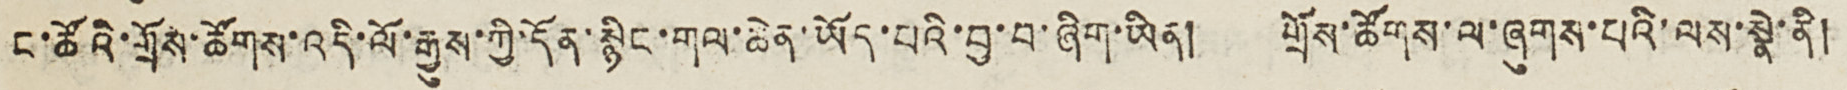ང་ཚོའི་གྲོས་ཚོགས་འདི་ལོ་རྒྱུས་ཀྱི་དོན་སྙིང་གལ་ཆེན་ཡོད་པའི་བྱ་བ་ཞིག་ཡིན། གྲོས་ཚོགས་ལ་ཞུགས་པའི་ལས་སྣེ་ནི།
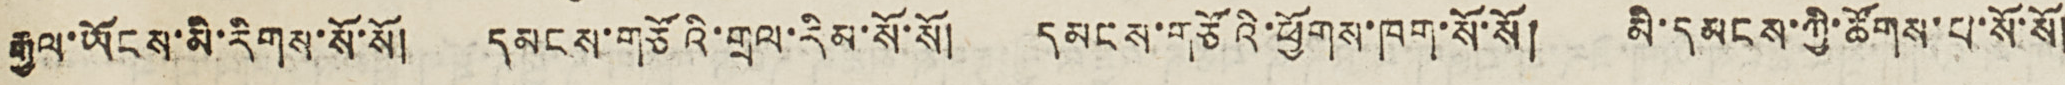རྒྱལ་ཡོངས་མི་རིགས་སོ་སོ། དམངས་གཙོའི་གྲལ་རིམ་སོ་སོ། དམངས་གཙོའི་ཕྱོགས་ཁག་སོ་སོ། མི་དམངས་ཀྱི་ཚོགས་པ་སོ་སོ།
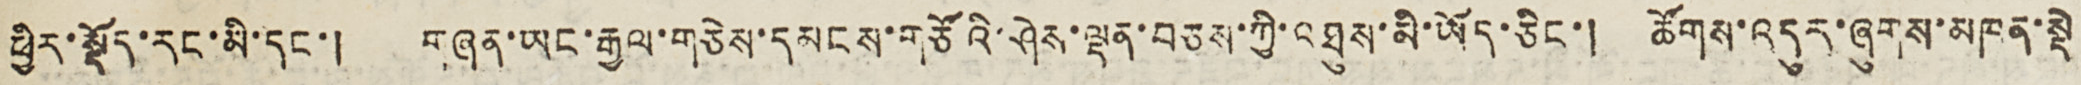ཕྱིར་སྡོད་རང་མི་དང་། གཞན་ཡང་རྒྱལ་གཅེས་དམངས་གཙོའི་ཤེས་ལྡན་བཅས་ཀྱི་འཐུས་མི་ཡོད་ཅིང་། ཚོགས་འདུར་ཟུགས་མཁན་སྡེ
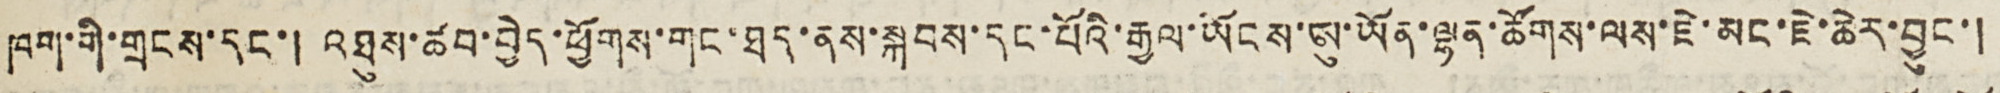ཁག་གི་གྲངས་དང་། འཐུས་ཚབ་བྱེད་ཕྱོགས་གང་ཐད་ནས་སྐབས་དང་པོའི་རྒྱལ་ཡོངས་ཨུ་ཡོན་ལྷན་ཚོགས་ལས་ཇེ་མང་ཇེ་ཆེར་བྱུང་།
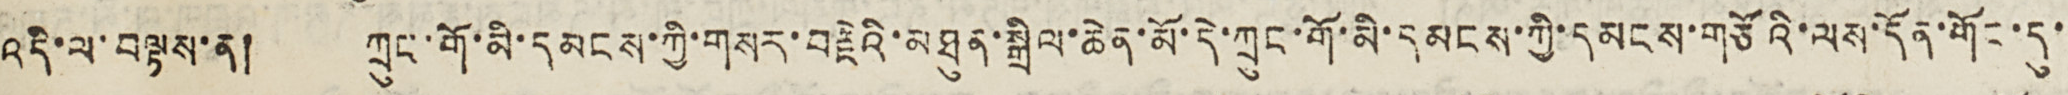འདི་ལ་བལྟས་ན། ཀྲུང་གོ་མི་དམངས་ཀྱི་གསར་བརྗེའི་མཐུན་སྒྲིལ་ཆེན་མོ་དེ་ཀྲུང་གོ་མི་དམངས་ཀྱི་དམངས་གཙོའི་ལས་དོན་གོང་དུ་
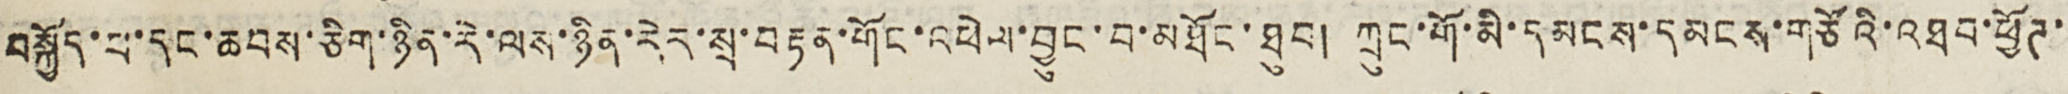བསྐྱོད་པ་དང་ཆབས་ཅིག་ཉིན་རེ་ལས་ཉིན་རེར་སྲ་བརྟན་གོང་འཕེལ་བྱུང་བ་མཐོང་ཐུབ། ཀྲུང་གོ་མི་དམངས་དམངས་གཙོའི་འཐབ་ཕྱོཊ་
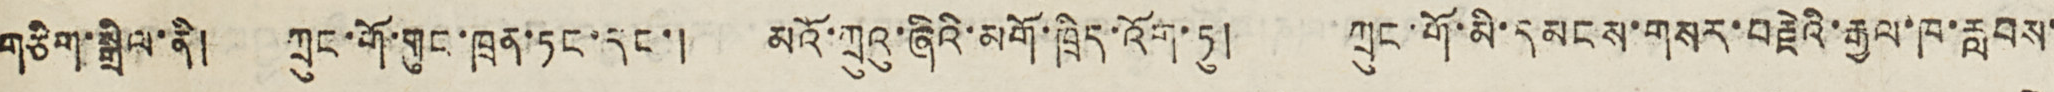གཅིག་སྒྲིལ་ནི། ཀྲུང་གོ་གུང་ཁྲན་ཏང་དང་། མའོ་ཀྲུའུ་ཞིའི་མགོ་ཁྲིད་འོག་ཏུ། ཀྲུང་གོ་མི་དམངས་གསར་བརྗེའི་རྒྱལ་ཁ་རླབས་
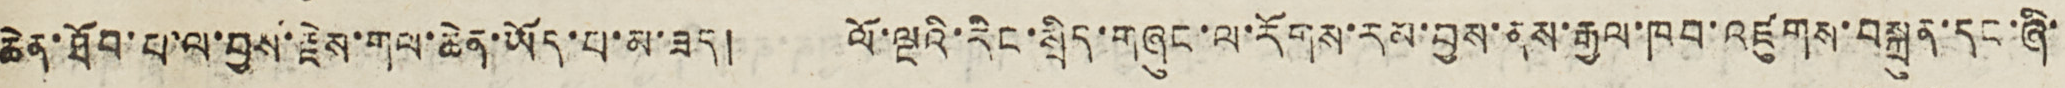ཆེན་ཐོབ་པ་ལ་བྱས་རྗེས་གལ་ཆེན་ཡོད་པ་མ་ཟད། ལོ་ལྔའི་རིང་སྲིད་གཞུང་ལ་རོགས་རས་བྱས་ནས་རྒྱལ་ཁབ་འཛུགས་བསྐྲུན་དང་ཞི་
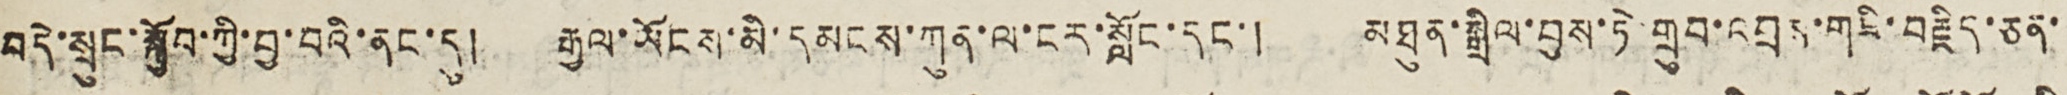བདེ་སྲུང་སྐྱོབ་ཀྱི་བྱ་བའི་ནང་དུ། རྒྱལ་ཡོངས་མེ་དམངས་ཀུན་ལ་ངར་སློང་དང་། མཐུན་སྒྲིལ་བྱས་ཏེ་གྲུབ་འབྲད་གཟི་བརྗིད་ཅན་
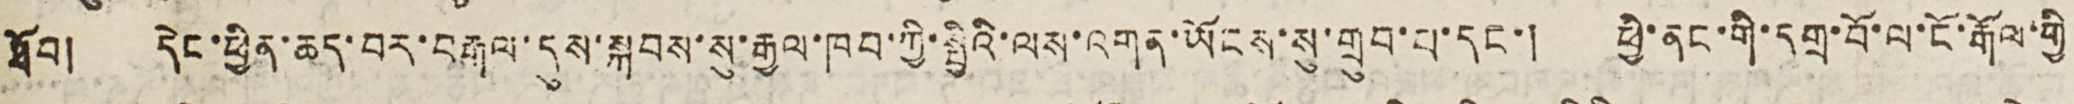ཐོབ། དེང་ཕྱིན་ཆད་བར་བརྒལ་དུས་སྐབས་སུ་རྒྱལ་ཁབ་ཀྱི་སྤྱིའི་ལས་འགན་ཡོངས་སུ་གྲུབ་པ་དང་། ཕྱི་ནང་གི་དགྲ་བོ་ལ་ངོ་རྒོལ་གྱི
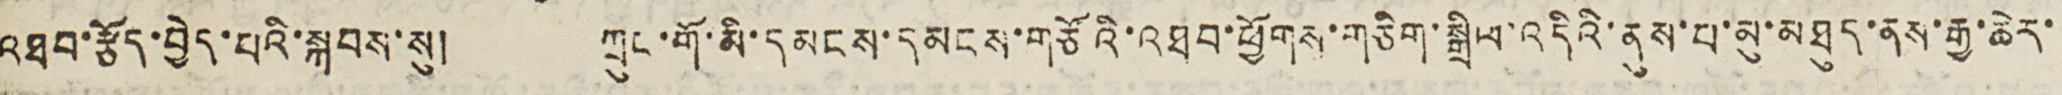འཐབ་རྩོད་བྱེད་པའི་སྐབས་སུ། ཀྲུང་གོ་མི་དམངས་དམངས་གཙོའི་འཐབ་ཕྱོགས་གཅིག་སྒྲིལ་འདིའི་ནུས་པ་མུ་མཐུད་ནས་རྒྱ་ཆེར་
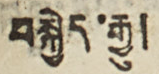བསྐྱེད་རྒྱུ།
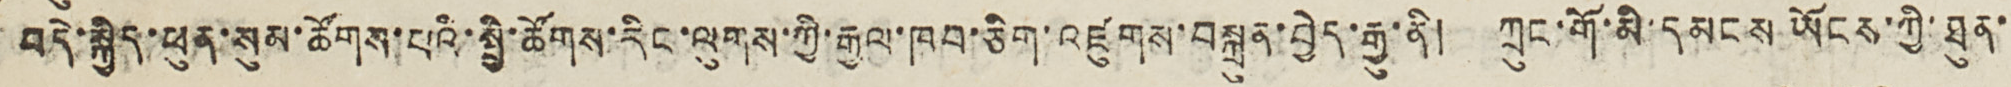བདེ་སྐྱིད་ཕུན་སུམ་ཚོགས་པའི་སྤྱི་ཚོགས་རིང་ལུགས་ཀྱི་རྒྱལ་ཁབ་ཅིག་འཛུགས་བསྐྲུན་བྱེད་རྒྱུ་ནི། ཀྲུང་གོ་མི་དམངས ཡོངས་ཀྱི་ཐུན་
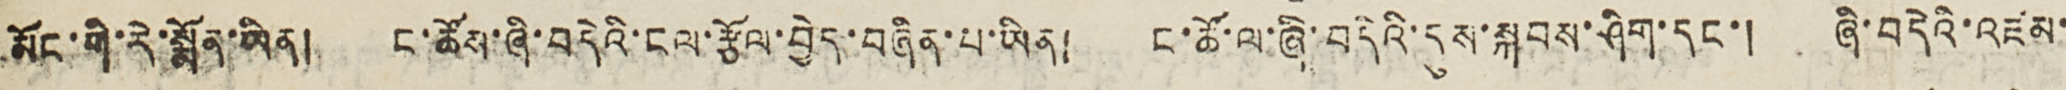མོང་གི་རེ་སྨོན་ཡིན། ང་ཚོས་ཞི་བདེའི་ངལ་རྩོལ་བྱེད་བཞིན་པ་ཡིན། ང་ཚོ་ལ་ཞི་བདེའི་དུས་སྐབས་ཤིག་དང་། ཞི་བདེའི་འཛམ་
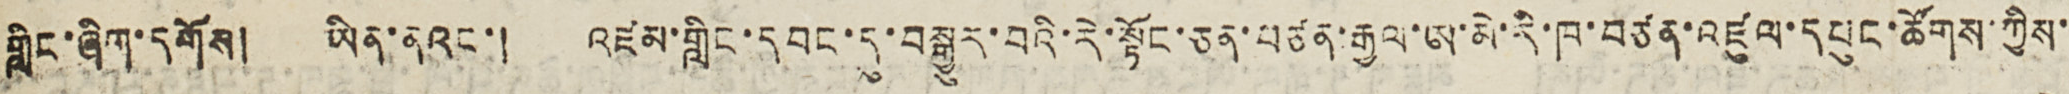གླིང་ཞིག་དགོས། ཡིན་ནའང་། འཛམ་གླིང་དབང་དུ་བསྒྱུར་བའི་རེ་སྟོང་ཅན་བཙན་རྒྱལ་ཨ་མེ་རི་ཁ་བཙན་འཛུལ་དཔུང་ཚོགས་ཀྱིས་
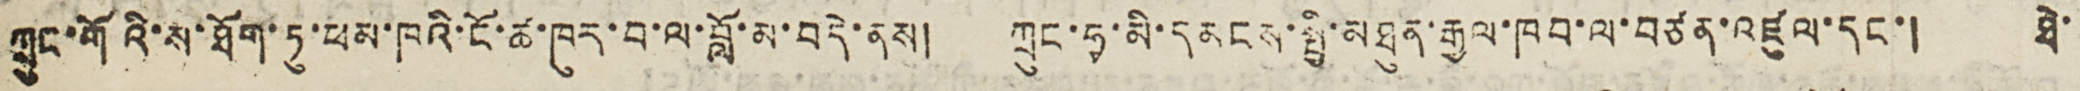ཀྲུང་གོའི་ས་ཐོག་ཏུ་ཕམ་ཁའི་ངོ་ཚ་ཁུར་བ་ལ་བློ་མ་བདེ་ནས། ཀྲུང་ཧྭ་མི་དམངས་སྤྱི་མཐུན་རྒྱལ་ཁབ་ལ་བཙན་འཛུལ་དང་། ཐེ་
